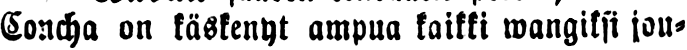Concha on käskenyt ampua kaikki waagiksi jou-
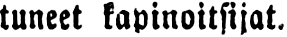tuneet kapinoitsijat.
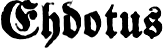Ehdotus
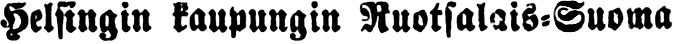Helsingin kaupungin Ruotsalais-Suoma-
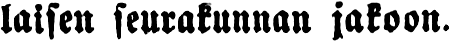laisen seurakunnan jakoon.
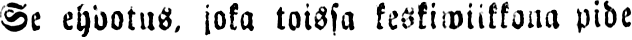Se ehdotus, joka toissa keskiwiikkona pide
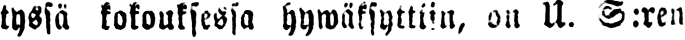tyssä kokouksessa hywäksyttiin, on. S:ren
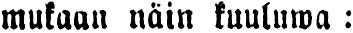mukaan näin kuuluwa:
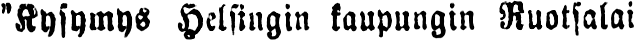"Kysymys Helsingin kaupungin Ruotsalai-
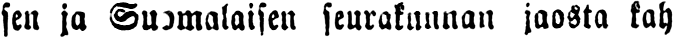sen ja Suomalaisen seurakunnan jaosta kah-
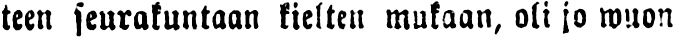teen seurakuntaan kielten mukaan, oli jo wuon
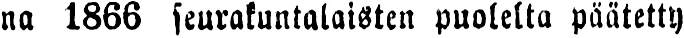na 1866 seurakuntalaisten puolelta päätetty
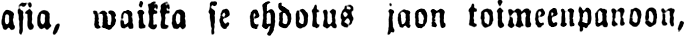asia, waikka se ehdotus jaon toimeenpanoon,
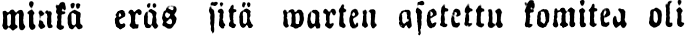minkä eräs sitä warten asetettu komitea oli
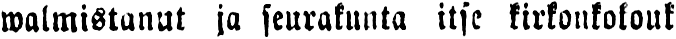walmistanut ja seurakunta itse kirkonkokouk-
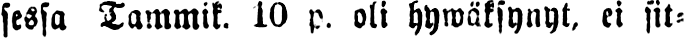sessa Tammik. 10 p. oli hywäksynyt, ei sit-
